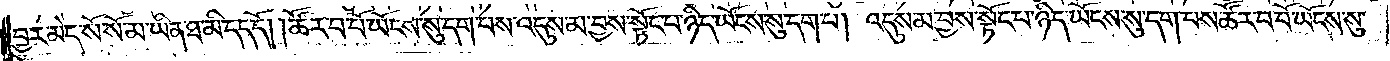བྱར་མེད་སོ་སོ་མ་ཡིན་ཐ་མི་དད་དོ། །ཚོར་བ་པོ་ཡོངས་སུ་དག་པས་འདུས་མ་བྱས་སྟོང་པ་ཉིད་ཡོངས་སུ་དག་པ། འདུས་མ་བྱས་སྟོང་པ་ཉིད་ཡོངས་སུ་དག་པས་ཚོར་བ་པོ་ཡོངས་སུ་
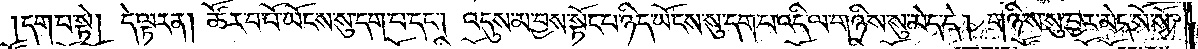དག་པ་སྟེ། དེ་ལྟར་ན། ཚོར་བ་པོ་ཡོངས་སུ་དག་པ་དང༌། འདུས་མ་བྱས་སྟོང་པ་ཉིད་ཡོངས་སུ་དག་པ་འདི་ལ་གཉིས་སུ་མེད་དེ། གཉིས་སུ་བྱར་མེད་སོ་སོ་
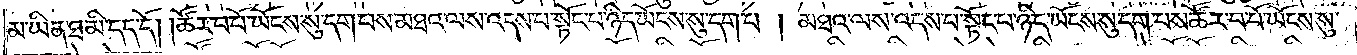མ་ཡིན་ཐ་མི་དད་དོ། །ཚོར་བ་པོ་ཡོངས་སུ་དག་པས་མཐའ་ལས་འདས་པ་སྟོང་པ་ཉིད་ཡོངས་སུ་དག་པ། མཐའ་ལས་འདས་པ་སྟོང་པ་ཉིད་ཡོངས་སུ་དག་པས་ཚོར་བ་པོ་ཡོངས་སུ་
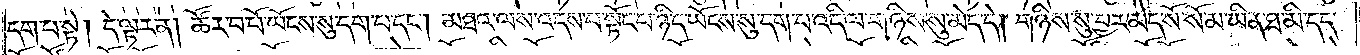དག་པ་སྟེ། དེ་ལྟར་ན། ཚོར་བ་པོ་ཡོངས་སུ་དག་པ་དང༌། མཐའ་ལས་འདས་པ་སྟོང་པ་ཉིད་ཡོངས་སུ་དག་པ་འདི་ལ་གཉིས་སུ་མེད་དེ། གཉིས་སུ་བྱར་མེད་སོ་སོ་མ་ཡིན་ཐ་མི་དད་
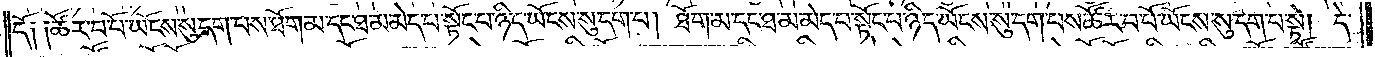དོ༑ ༑ཚོར་བ་པོ་ཡོངས་སུ་དག་པས་ཐོག་མ་དང་ཐ་མ་མེད་པ་སྟོང་པ་ཉིད་ཡོངས་སུ་དག་པ། ཐོག་མ་དང་ཐ་མ་མེད་པ་སྟོང་པ་ཉིད་ཡོངས་སུ་དག་པས་ཚོར་བ་པོ་ཡོངས་སུ་དག་པ་སྟེ། དེ་
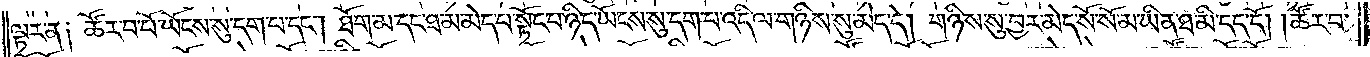ལྟར་ན༑ ཚོར་བ་པོ་ཡོངས་སུ་དག་པ་དང༌། ཐོག་མ་དང་ཐ་མ་མེད་པ་སྟོང་པ་ཉིད་ཡོངས་སུ་དག་པ་འདི་ལ་གཉིས་སུ་མེད་དེ། གཉིས་སུ་བྱར་མེད་སོ་སོ་མ་ཡིན་ཐ་མི་དད་དོ། །ཚོར་བ་
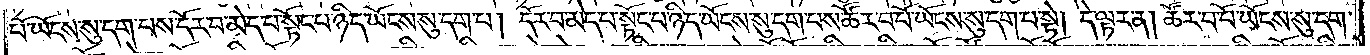པོ་ཡོངས་སུ་དག་པས་དོར་བ་མེད་པ་སྟོང་པ་ཉིད་ཡོངས་སུ་དག་པ། དོར་བ་མེད་པ་སྟོང་པ་ཉིད་ཡོངས་སུ་དག་པས་ཚོར་བ་པོ་ཡོངས་སུ་དག་པ་སྟེ། དེ་ལྟར་ན། ཚོར་བ་པོ་ཡོངས་སུ་དག་
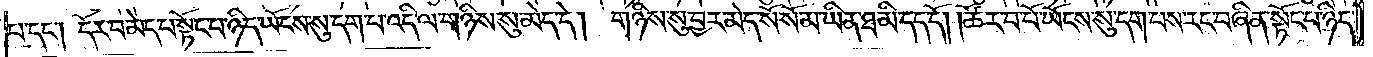པ་དང༌། དོར་བ་མེད་པ་སྟོང་པ་ཉིད་ཡོངས་སུ་དག་པ་འདི་ལ་གཉིས་སུ་མེད་དེ། གཉིས་སུ་བྱར་མེད་སོ་སོ་མ་ཡིན་ཐ་མི་དད་དོ། །ཚོར་བ་པོ་ཡོངས་སུ་དག་པས་རང་བཞིན་སྟོང་པ་ཉིད་
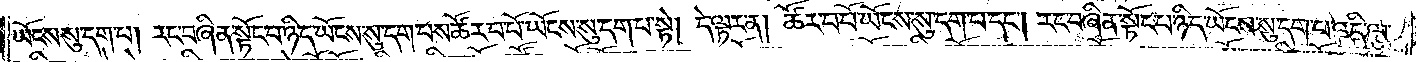ཡོངས་སུ་དག་པ། རང་བཞིན་སྟོང་པ་ཉིད་ཡོངས་སུ་དག་པས་ཚོར་བ་པོ་ཡོངས་སུ་དག་པ་སྟེ། དེ་ལྟར་ན། ཚོར་བ་པོ་ཡོངས་སུ་དག་པ་དང༌། རང་བཞིན་སྟོང་པ་ཉིད་ཡོངས་སུ་དག་པ་འདི་ལ་
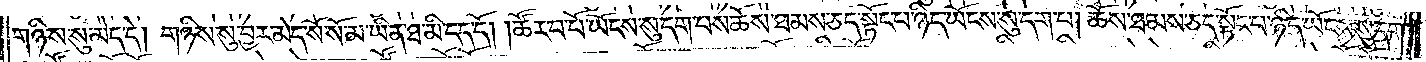གཉིས་སུ་མེད་དེ། གཉིས་སུ་བྱར་མེད་སོ་སོ་མ་ཡིན་ཐ་མི་དད་དོ། །ཚོར་བ་པོ་ཡོངས་སུ་དག་པས་ཆོས་ཐམས་ཅད་སྟོང་པ་ཉིད་ཡོངས་སུ་དག་པ། ཆོས་ཐམས་ཅད་སྟོང་པ་ཉིད་ཡོངས་སུ་དག་
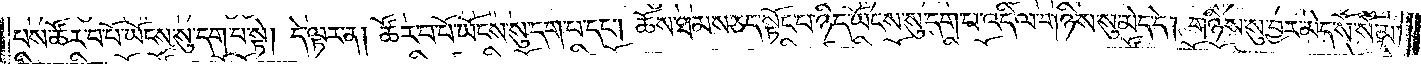པས་ཚོར་བ་པོ་ཡོངས་སུ་དག་པ་སྟེ། དེ་ལྟར་ན། ཚོར་བ་པོ་ཡོངས་སུ་དག་པ་དང༌། ཆོས་ཐམས་ཅད་སྟོང་པ་ཉིད་ཡོངས་སུ་དག་པ་འདི་ལ་གཉིས་སུ་མེད་དེ། གཉིས་སུ་བྱར་མེད་སོ་སོ་མ་
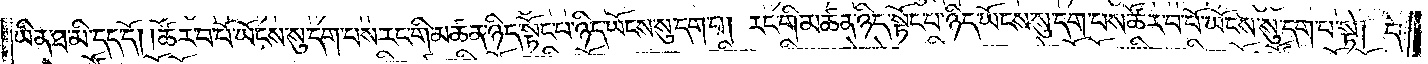ཡིན་ཐ་མི་དད་དོ། །ཚོར་བ་པོ་ཡོངས་སུ་དག་པས་རང་གི་མཚན་ཉིད་སྟོང་པ་ཉིད་ཡོངས་སུ་དག་པ། རང་གི་མཚན་ཉིད་སྟོང་པ་ཉིད་ཡོངས་སུ་དག་པས་ཚོར་བ་པོ་ཡོངས་སུ་དག་པ་སྟེ། དེ་
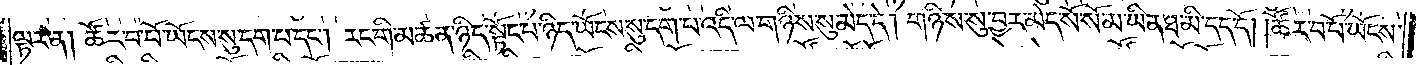ལྟར་ན། ཚོར་བ་པོ་ཡོངས་སུ་དག་པ་དང༌། རང་གི་མཚན་ཉིད་སྟོང་པ་ཉིད་ཡོངས་སུ་དག་པ་འདི་ལ་གཉིས་སུ་མེད་དེ། གཉིས་སུ་བྱར་མེད་སོ་སོ་མ་ཡིན་ཐ་མི་དད་དོ། །ཚོར་བ་པོ་ཡོངས་
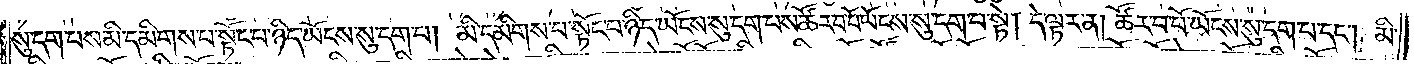སུ་དག་པས་མི་དམིགས་པ་སྟོང་པ་ཉིད་ཡོངས་སུ་དག་པ། མི་དམིགས་པ་སྟོང་པ་ཉིད་ཡོངས་སུ་དག་པས་ཚོར་བ་པོ་ཡོངས་སུ་དག་པ་སྟེ། དེ་ལྟར་ན། ཚོར་བ་པོ་ཡོངས་སུ་དག་པ་དང༌། མི་
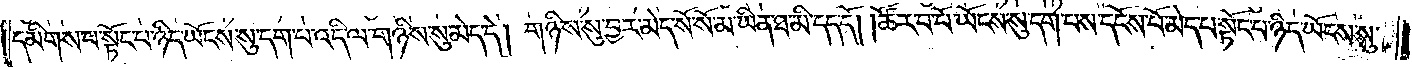དམིགས་པ་སྟོང་པ་ཉིད་ཡོངས་སུ་དག་པ་འདི་ལ་གཉིས་སུ་མེད་དེ། གཉིས་སུ་བྱར་མེད་སོ་སོ་མ་ཡིན་ཐ་མི་དད་དོ། །ཚོར་བ་པོ་ཡོངས་སུ་དག་པས་དངོས་པོ་མེད་པ་སྟོང་པ་ཉིད་ཡོངས་སུ་
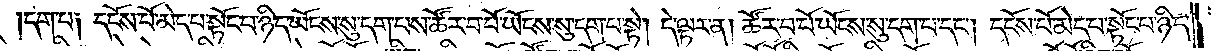དག་པ༑ དངོས་པོ་མེད་པ་སྟོང་པ་ཉིད་ཡོངས་སུ་དག་པས་ཚོར་བ་པོ་ཡོངས་སུ་དག་པ་སྟེ། དེ་ལྟར་ན། ཚོར་བ་པོ་ཡོངས་སུ་དག་པ་དང༌། དངོས་པོ་མེད་པ་སྟོང་པ་ཉིད་
